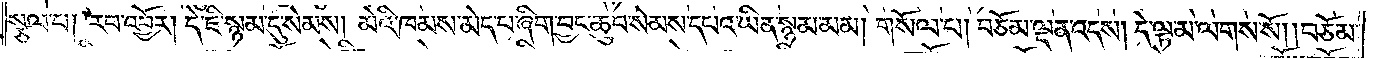སྩལ་པ། རབ་འབྱོར། དེ་ཇི་སྙམ་དུ་སེམས། མེའི་ཁམས་མེད་པ་ཞིག་བྱང་ཆུབ་སེམས་དཔའ་ཡིན་སྙམ་མམ། གསོལ་པ། བཅོམ་ལྡན་འདས། དེ་ལྟ་མ་ལགས་སོ། །བཅོམ་
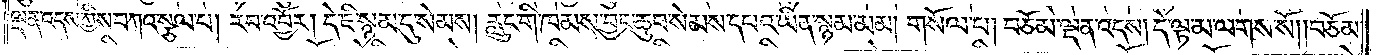ལྡན་འདས་ཀྱིས་བཀའ་སྩལ་པ། རབ་འབྱོར། དེ་ཇི་སྙམ་དུ་སེམས། རླུང་གི་ཁམས་བྱང་ཆུབ་སེམས་དཔའ་ཡིན་སྙམ་མམ། གསོལ་པ། བཅོམ་ལྡན་འདས། དེ་ལྟ་མ་ལགས་སོ། །བཅོམ་
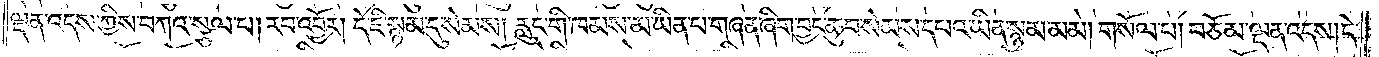ལྡན་འདས་ཀྱིས་བཀའ་སྩལ་པ། རབ་འབྱོར། དེ་ཇི་སྙམ་དུ་སེམས། རླུང་གི་ཁམས་མ་ཡིན་པ་གཞན་ཞིག་བྱང་ཆུབ་སེམས་དཔའ་ཡིན་སྙམ་མམ། གསོལ་པ། བཅོམ་ལྡན་འདས། དེ་
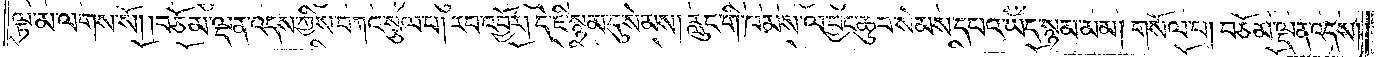ལྟ་མ་ལགས་སོ། །བཅོམ་ལྡན་འདས་ཀྱིས་བཀའ་སྩལ་པ། རབ་འབྱོར། དེ་ཇི་སྙམ་དུ་སེམས། རླུང་གི་ཁམས་ལ་བྱང་ཆུབ་སེམས་དཔའ་ཡོད་སྙམ་མམ། གསོལ་པ། བཅོམ་ལྡན་འདས།
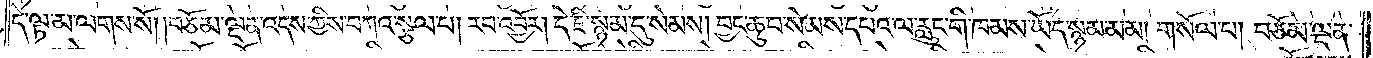དེ་ལྟ་མ་ལགས་སོ། །བཅོམ་ལྡན་འདས་ཀྱིས་བཀའ་སྩལ་པ། རབ་འབྱོར། དེ་ཇི་སྙམ་དུ་སེམས། བྱང་ཆུབ་སེམས་དཔའ་ལ་རླུང་གི་ཁམས་ཡོད་སྙམ་མམ། གསོལ་པ། བཅོམ་ལྡན་
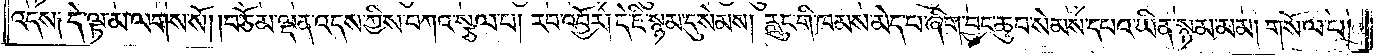འདས༑ དེ་ལྟ་མ་ལགས་སོ། །བཅོམ་ལྡན་འདས་ཀྱིས་བཀའ་སྩལ་པ། རབ་འབྱོར། དེ་ཇི་སྙམ་དུ་སེམས། རླུང་གི་ཁམས་མེད་པ་ཞིག་བྱང་ཆུབ་སེམས་དཔའ་ཡིན་སྙམ་མམ། གསོལ་པ།
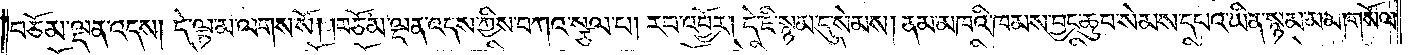བཅོམ་ལྡན་འདས། དེ་ལྟ་མ་ལགས་སོ། །བཅོམ་ལྡན་འདས་ཀྱིས་བཀའ་སྩལ་པ། རབ་འབྱོར། དེ་ཇི་སྙམ་དུ་སེམས། ནམ་མཁའི་ཁམས་བྱང་ཆུབ་སེམས་དཔའ་ཡིན་སྙམ་མམ། གསོལ་
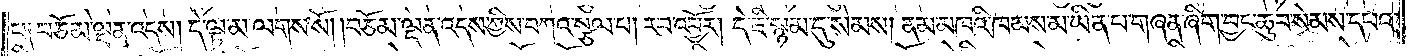པ༑ བཅོམ་ལྡན་འདས། དེ་ལྟ་མ་ལགས་སོ། །བཅོམ་ལྡན་འདས་ཀྱིས་བཀའ་སྩལ་པ། རབ་འབྱོར། དེ་ཇི་སྙམ་དུ་སེམས། ནམ་མཁའི་ཁམས་མ་ཡིན་པ་གཞན་ཞིག་བྱང་ཆུབ་སེམས་དཔའ་
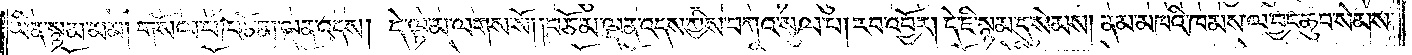ཡིན་སྙམ་མམ། གསོལ་པ། བཅོམ་ལྡན་འདས། དེ་ལྟ་མ་ལགས་སོ། །བཅོམ་ལྡན་འདས་ཀྱིས་བཀའ་སྩལ་པ། རབ་འབྱོར། དེ་ཇི་སྙམ་དུ་སེམས། ནམ་མཁའི་ཁམས་ལ་བྱང་ཆུབ་སེམས་
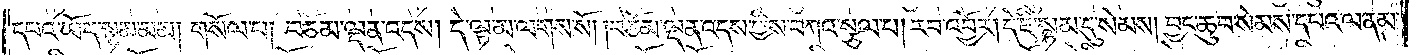དཔའ་ཡོད་སྙམ་མམ། གསོལ་པ། བཅོམ་ལྡན་འདས། དེ་ལྟ་མ་ལགས་སོ། །བཅོམ་ལྡན་འདས་ཀྱིས་བཀའ་སྩལ་པ། རབ་འབྱོར། དེ་ཇི་སྙམ་དུ་སེམས། བྱང་ཆུབ་སེམས་དཔའ་ལ་ནམ་
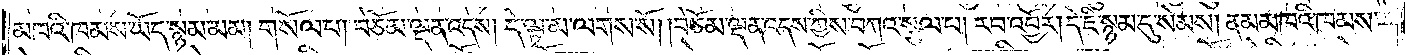མཁའི་ཁམས་ཡོད་སྙམ་མམ། གསོལ་པ། བཅོམ་ལྡན་འདས། དེ་ལྟ་མ་ལགས་སོ། །བཅོམ་ལྡན་འདས་ཀྱིས་བཀའ་སྩལ་པ། རབ་འབྱོར། དེ་ཇི་སྙམ་དུ་སེམས། ནམ་མཁའི་ཁམས་
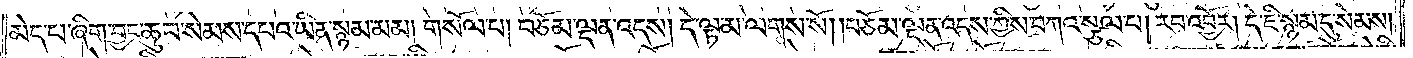མེད་པ་ཞིག་བྱང་ཆུབ་སེམས་དཔའ་ཡིན་སྙམ་མམ། གསོལ་པ། བཅོམ་ལྡན་འདས། དེ་ལྟ་མ་ལགས་སོ། །བཅོམ་ལྡན་འདས་ཀྱིས་བཀའ་སྩལ་པ། རབ་འབྱོར། དེ་ཇི་སྙམ་དུ་སེམས།
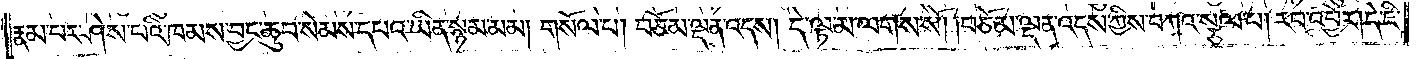རྣམ་པར་ཤེས་པའི་ཁམས་བྱང་ཆུབ་སེམས་དཔའ་ཡིན་སྙམ་མམ། གསོལ་པ། བཅོམ་ལྡན་འདས། དེ་ལྟ་མ་ལགས་སོ། །བཅོམ་ལྡན་འདས་ཀྱིས་བཀའ་སྩལ་པ། རབ་འབྱོར། དེ་ཇི་
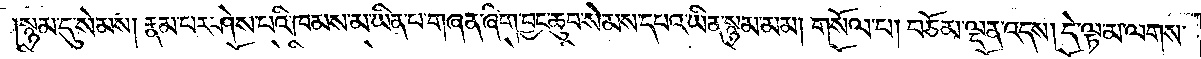སྙམ་དུ་སེམས། རྣམ་པར་ཤེས་པའི་ཁམས་མ་ཡིན་པ་གཞན་ཞིག་བྱང་ཆུབ་སེམས་དཔའ་ཡིན་སྙམ་མམ། གསོལ་པ། བཅོམ་ལྡན་འདས། དེ་ལྟ་མ་ལགས་
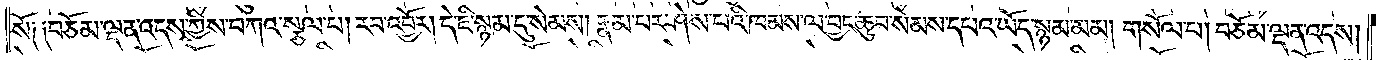སོ༑ ༑བཅོམ་ལྡན་འདས་ཀྱིས་བཀའ་སྩལ་པ། རབ་འབྱོར། དེ་ཇི་སྙམ་དུ་སེམས། རྣམ་པར་ཤེས་པའི་ཁམས་ལ་བྱང་ཆུབ་སེམས་དཔའ་ཡོད་སྙམ་མམ། གསོལ་པ། བཅོམ་ལྡན་འདས།
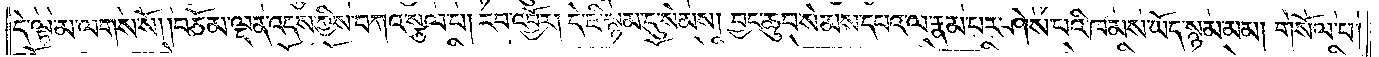དེ་ལྟ་མ་ལགས་སོ། །བཅོམ་ལྡན་འདས་ཀྱིས་བཀའ་སྩལ་པ། རབ་འབྱོར། དེ་ཇི་སྙམ་དུ་སེམས། བྱང་ཆུབ་སེམས་དཔའ་ལ་རྣམ་པར་ཤེས་པའི་ཁམས་ཡོད་སྙམ་མམ། གསོལ་པ།
